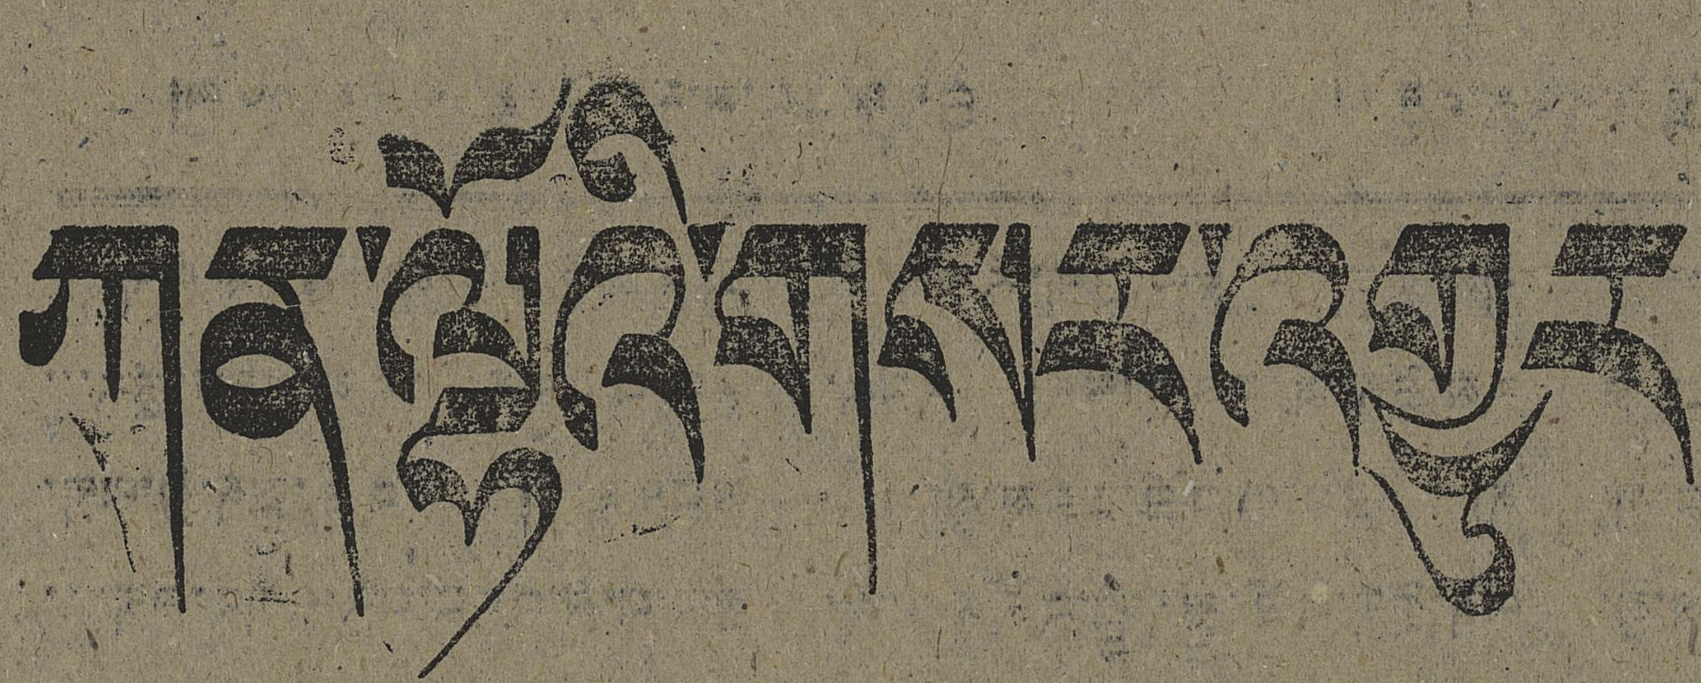ཀན་ལྷོའི་གསར་འགྱུར
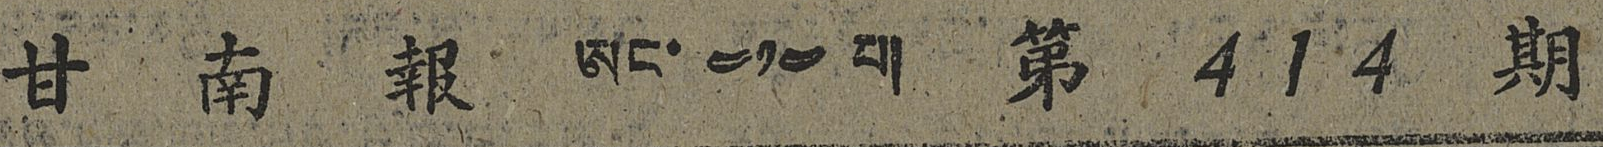甘 南 報 ཨང་ ༤༡༤ པ། 第 414 期
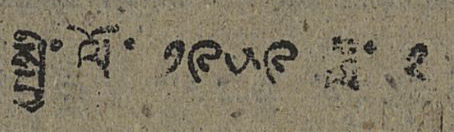སྤྱི་ལོ་ ༡༩༥༩ ཟླ་ ༢
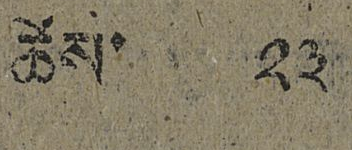ཚེས་ ༢༣
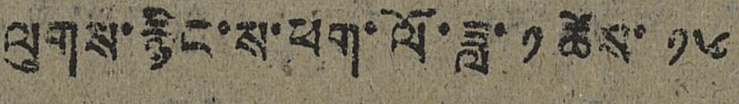ལུགས་རྙིང་ས་ཕག་ལོ་ཟླ་ ༡ ཚེས་ ༡༦
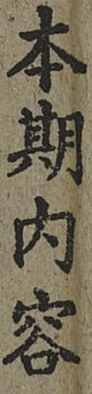本期內容
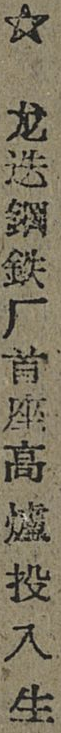☆ 龙迭鋼鉄厂首座高爐投入生
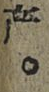产。
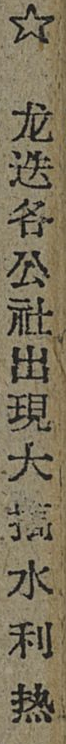☆ 龙迭各公社出現大搞水利热
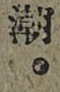潮。
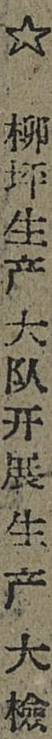☆ 柳坪生产大队开展生产大檢
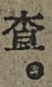查。
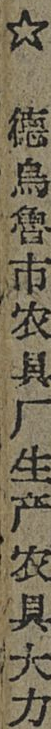☆ 德烏魯市农具厂生产农具大力
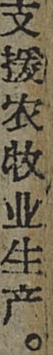支援农牧业生产。
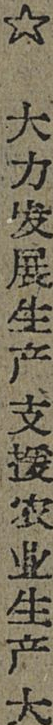☆ 大力发展生产支援农业生产大
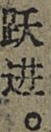跃进。
